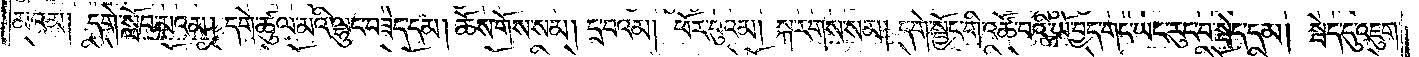མའམ། དགེ་སློབ་མའམ། དགེ་ཚུལ་མའི་ལྷུང་བཟེད་དམ། ཆོས་གོས་སམ། དྲ་བའམ། ཕོར་བུའམ། སྐ་རགས་སམ། དགེ་སྦྱོང་གི་འཚོ་བའི་ཡོ་བྱད་གང་ཡང་རུང་བ་སྦེད་དམ། སྦེད་དུ་འཇུག་
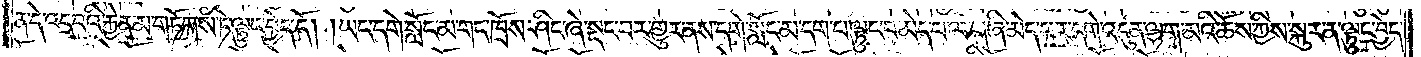ན་དེ་འདྲ་བའི་རྐྱེན་མ་གཏོགས་ཏེ་ལྟུང་བྱེད་དོ། །ཡང་དགེ་སློང་མ་གང་ཁྲོས་ཤིང་ཞེ་སྡང་བར་གྱུར་ནས་དགེ་སློང་མ་དག་པ་ལྟུང་བ་མེད་པ་ལ་གཞི་མེད་པར་དགེ་འདུན་ལྷག་མའི་ཆོས་ཀྱིས་སྐུར་ན་ལྟུང་བྱེད་
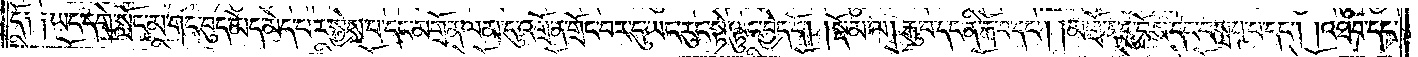དོ༑ ༑ཡང་དགེ་སློང་མ་གང་བུད་མེད་མེད་པར་སྐྱེས་པ་དང་མགྲོན་ལམ་དུ་འགྲོ་ན་གྲོང་བར་དུ་ཡང་རུང་སྟེ་ལྟུང་བྱེད་དོ།    །སྡོམ་ལ། རྐུ་བ་དང་ནི་རྐོ་བ་དང༌། །མགྲོན་དུ་བོས་དང་བསླབ་པ་དང༌། །འཐབ་དང་
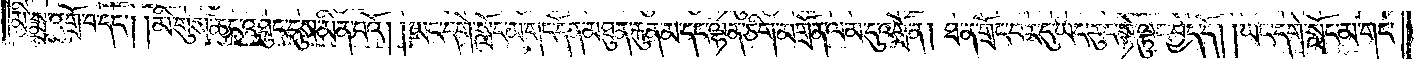མི་སྨྲ་འགྲོ་བ་དང༌། །མི་གུས་ཆང་འཐུང་དུས་མིན་པའོ། །ཡང་དགེ་སློང་མ་གང་དོན་མཐུན་རྐུན་མ་དང་ལྷན་ཅིག་མགྲོན་ལམ་དུ་འགྲོ་ན། ཐ་ན་གྲོང་བར་དུ་ཡང་རུང་སྟེ་ལྟུང་བྱེད་དོ། །ཡང་དགེ་སློང་མ་གང་
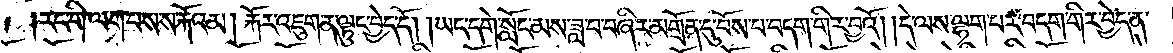རང་གི་ལག་པས་ས་རྐོའམ། རྐོར་འཇུག་ན་ལྟུང་བྱེད་དོ། །ཡང་དགེ་སློང་མས་ཟླ་བ་བཞིར་མགྲོན་དུ་བོས་པ་བདག་གིར་བྱའོ། །དེ་ལས་ལྷག་པར་བདག་གིར་བྱེད་ན་
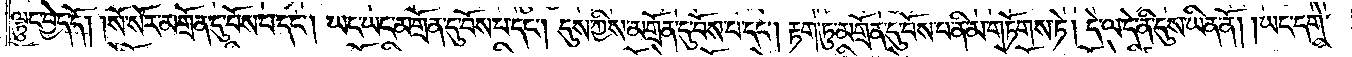ལྟུང་བྱེད་དོ། །སོ་སོར་མགྲོན་དུ་བོས་པ་དང༌། ཡང་ཡང་མགྲོན་དུ་བོས་པ་དང༌། དུས་ཀྱིས་མགྲོན་དུ་བོས་པ་དང༌། རྟག་ཏུ་མགྲོན་དུ་བོས་པ་ནི་མ་གཏོགས་ཏེ། དེ་ལ་དེ་ནི་དུས་ཡིན་ནོ། །ཡང་དགེ་
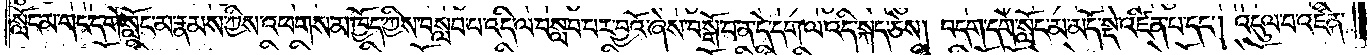སློང་མ་གང་དགེ་སློང་མ་རྣམས་ཀྱིས་འཕགས་མ་ཁྱོད་ཀྱིས་བསླབ་པ་འདི་ལ་བསླབ་པར་བྱའོ་ཞེས་བསྒོ་བ་ན་དེ་དག་ལ་འདི་སྐད་ཅེས། བདག་དགེ་སློང་མ་མདོ་སྡེ་འཛིན་པ་དང༌། འདུལ་བ་འཛིན་
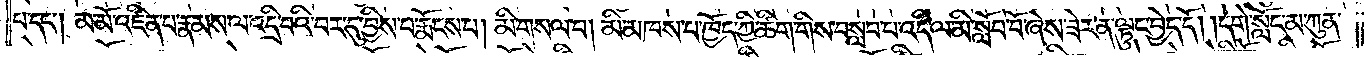པ་དང༌། མ་མོ་འཛིན་པ་རྣམས་ལ་འདྲི་བའི་བར་དུ་བྱིས་པ་རྨོངས་པ། མི་གསལ་བ། མི་མཁས་པ་ཁྱོད་ཀྱི་ཚིག་གིས་བསླབ་པ་འདི་ལ་མི་སློབ་པོ་ཞེས་ཟེར་ན་ལྟུང་བྱེད་དོ། །དགེ་སློང་མ་ཀུན་
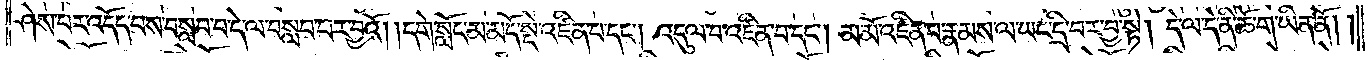ཤེས་པར་འདོད་པས་བསླབ་པ་དེ་ལ་བསླབ་པར་བྱའོ། །དགེ་སློང་མ་མདོ་སྡེ་འཛིན་པ་དང༌། འདུལ་བ་འཛིན་པ་དང༌། མ་མོ་འཛིན་པ་རྣམས་ལ་ཡང་དྲི་བར་བྱ་སྟེ། དེ་ལ་དེ་ནི་ཆོ་ག་ཡིན་ནོ། །
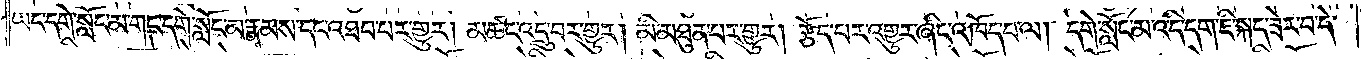ཡང་དགེ་སློང་མ་གང་དགེ་སློང་མ་རྣམས་དང་འཐབ་པར་གྱུར། མཚང་འདྲུ་བར་གྱུར། མི་མཐུན་པར་གྱུར། རྩོད་པར་འགྱུར་ཞིང་འཁོད་པ་ལ། དགེ་སློང་མ་འདི་དག་ཇི་སྐད་ཟེར་བ་དེ་
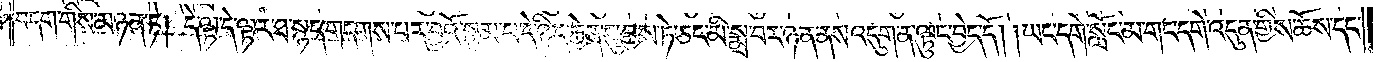བདག་གིས་མཉན་ཏེ། དེ་ལྟ་དེ་ལྟར་ཐ་སྙད་གདགས་པར་བྱའོ་སྙམ་པ་དེ་ཉིད་རྐྱེན་དུ་བྱས་ཏེ་ཅང་མི་སྨྲ་བར་ཉན་ནས་འདུག་ན་ལྟུང་བྱེད་དོ། །ཡང་དགེ་སློང་མ་གང་དགེ་འདུན་གྱིས་ཆོས་དང་
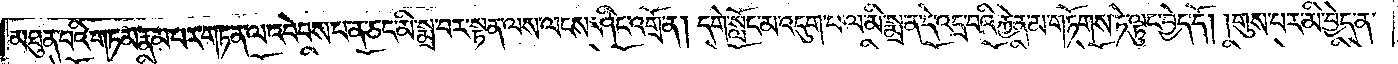མཐུན་པའི་གཏམ་རྣམ་པར་གཏན་ལ་འབེབས་པ་ན་ཅང་མི་སྨྲ་བར་སྟན་ལས་ལངས་ཤིང་འགྲོ་ན། དགེ་སློང་མ་འདུག་པ་ལ་མི་སྨྲ་ན་དེ་འདྲ་བའི་རྐྱེན་མ་གཏོགས་ཏེ་ལྟུང་བྱེད་དོ། །གུས་པར་མི་བྱེད་ན་
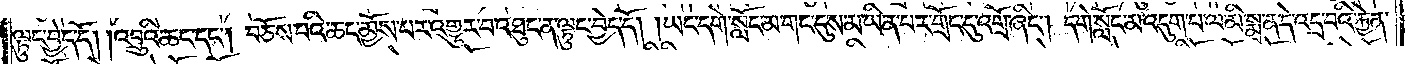ལྟུང་བྱེད་དོ། །འབྲུའི་ཆང་དང༌། བཅོས་པའི་ཆང་མྱོས་པར་འགྱུར་བ་འཐུང་ན་ལྟུང་བྱེད་དོ། །ཡང་དགེ་སློང་མ་གང་དུས་མ་ཡིན་པར་གྲོང་དུ་འགྲོ་ཞིང༌། དགེ་སློང་མ་འདུག་པ་ལ་མི་སྨྲ་ན་དེ་འདྲ་བའི་རྐྱེན་
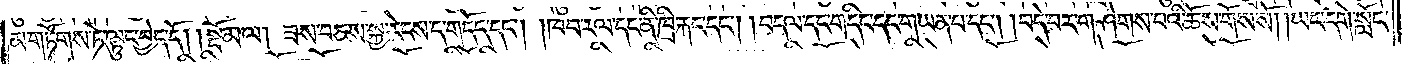མ་གཏོགས་ཏེ་ལྟུང་བྱེད་དོ།    །སྡོམ་ལ། ཟས་བཅས་སྐྱ་རེངས་ད་གདོད་དང༌། །ཁབ་རལ་དང་ནི་ཁྲི་རྐང་དང༌། །བདལ་དང་གདིང་དང་གཡན་པ་དང༌། །བདེ་བར་གཤེགས་པའི་ཆོས་གོས་སོ། །ཡང་དགེ་སློང་
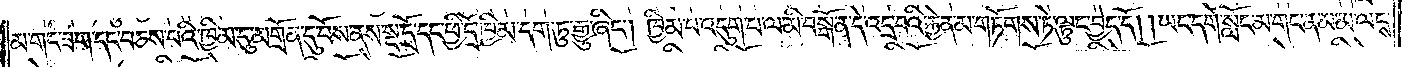མ་གང་ཟག་དང་བཅས་པའི་ཁྱིམ་དུ་མགྲོན་དུ་བོས་ནས་སྔ་དྲོ་དང་ཕྱི་དྲོ་ཁྱིམ་དག་ཏུ་རྒྱུ་ཞིང༌། ཁྱིམ་པ་འདུག་པ་ལ་མི་བསྒོ་ན་དེ་འདྲ་བའི་རྐྱེན་མ་གཏོགས་ཏེ་ལྟུང་བྱེད་དོ། །ཡང་དགེ་སློང་མ་གང་ནམ་མ་ལངས་
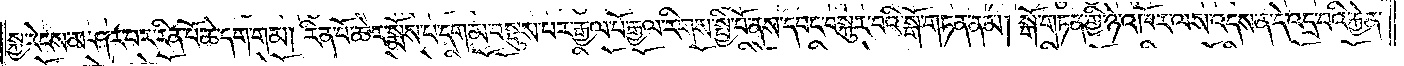སྐྱ་རེངས་མ་ཤར་བར་རིན་པོ་ཆེ་དག་གམ། རིན་པོ་ཆེར་སྨོས་པ་དག་མ་བསྡུས་པར་རྒྱལ་པོ་རྒྱལ་རིགས་སྤྱི་བོ་ནས་དབང་བསྐུར་བའི་སྒོ་གཏན་ནམ། སྒོ་གཏན་གྱི་ཉེ་འཁོར་ལས་འདས་ན་དེ་འདྲ་བའི་རྐྱེན་
